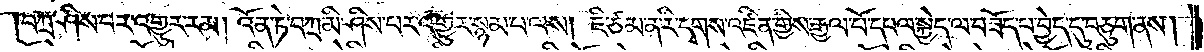།བཀྲ་ཤིས་པར་འགྱུར་རམ། འོན་ཏེ་བཀྲ་མི་ཤིས་པར་འགྱུར་སྙམ་པ་ལས། ཇི་ཙམ་ན་རི་དྭགས་འཛིན་གྱིས་རྒྱལ་པོ་དཔལ་སྐྱེད་ལ་བཟོད་པ་བྱེད་དུ་བཅུག་ནས།
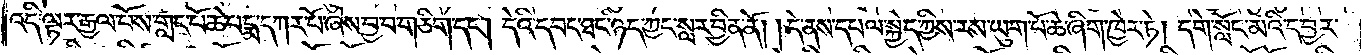འདི་ལྟར་རྒྱལ་པོས་གླང་པོ་ཆེ་པདྨ་དཀར་པོ་ཞེས་བྱ་བ་གཅིག་དང༌། དེའི་དབང་ཐང་ཉིད་ཀྱང་སླར་བྱིན་ནོ། །དེ་ནས་དཔལ་སྐྱེད་ཀྱིས་རས་ཡུག་པོ་ཆེ་ཞིག་ཁྱེར་ཏེ། དགེ་སློང་མའི་དབྱར་
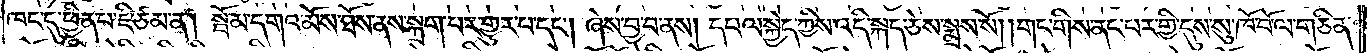ཁང་དུ་ཕྱིན་པ་ཇི་ཙམ་ན། སྦོམ་དགའ་མོས་ཐོས་ནས་སྐྲག་པར་གྱུར་པ་དང༌། ཞེས་བྱ་བ་ནས། དཔལ་སྐྱེད་ཀྱིས་འདི་སྐད་ཅེས་སྨྲས་སོ། །གང་གིས་ནང་པར་གྱི་དུས་སུ་ཁོ་བོ་ལ་གཅིན་
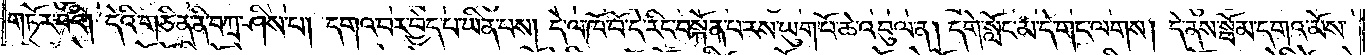གཏོར་བའི། དེའི་གཅིན་ནི་བཀྲ་ཤིས་པ། དགའ་བར་བྱེད་པ་ཡིན་པས། དེ་ལ་ཁོ་བོ་དེ་རིང་བསྐོན་པ་རས་ཡུག་པོ་ཆེ་འབུལ་ན། དགེ་སློང་མ་དེ་གང་ལགས། དེ་ནས་སྦོམ་དགའ་མོས་
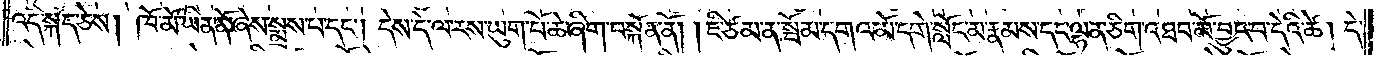འདི་སྐད་ཅེས། ཁོ་མོ་ཡིན་ནོ་ཞེས་སྨྲས་པ་དང༌། དེས་དེ་ལ་རས་ཡུག་པོ་ཆེ་ཞིག་བསྐོན་ནོ། །ཇི་ཙམ་ན་སྦོམ་དགའ་མོ་དགེ་སློང་མ་རྣམས་དང་ལྷན་ཅིག་འཐབ་མོ་བྱུང་བ་དེའི་ཚེ། དེ་
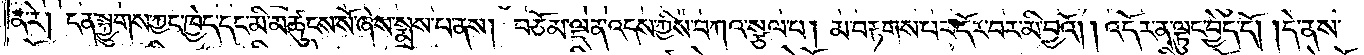ན་རེ། ངན་སྐྱུགས་ཀྱང་ཁྱེད་དང་མི་མཚུངས་སོ་ཞེས་སྨྲས་པ་ནས། བཅོམ་ལྡན་འདས་ཀྱིས་བཀའ་སྩལ་པ། མ་བརྟགས་པར་དོར་བར་མི་བྱའོ། །འདོར་ན་ལྟུང་བྱེད་དོ། །དེ་ནས་
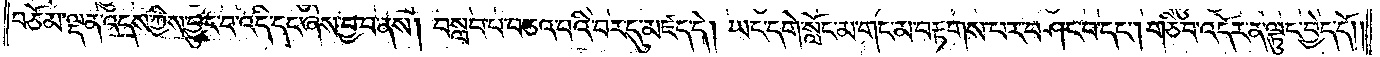བཅོམ་ལྡན་འདས་ཀྱིས་བྱུང་བ་འདི་དང་ཞེས་བྱ་བ་ནས། བསླབ་པ་བཅའ་བའི་བར་དུ་མཛད་དེ། ཡང་དགེ་སློང་མ་གང་མ་བརྟགས་པར་བཤང་བ་དང༌། གཅི་བ་འདོར་ན་ལྟུང་བྱེད་དོ༎
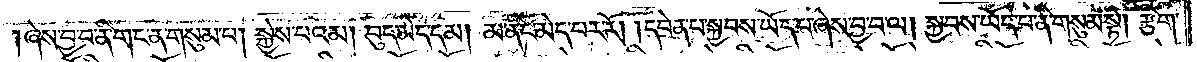།ཞེས་བྱ་བ་ནི་གང་ན་གསུམ་པ། སྐྱེས་པའམ། བུད་མེད་དམ། མ་ནིང་མེད་པར་རོ། །དབེན་པ་སྐྱབས་ཡོད་པ་ཞེས་བྱ་བ་ལ། སྐྱབས་ཡོད་པ་ནི་གསུམ་སྟེ། རྩིག་
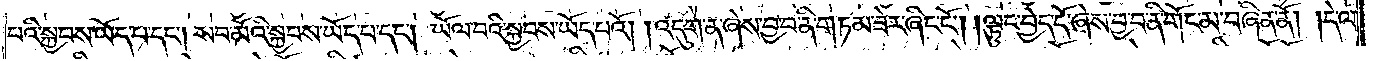པའི་སྐྱབས་ཡོད་པ་དང༌། སབ་མོའི་སྐྱབས་ཡོད་པ་དང༌། ཡོལ་བའི་སྐྱབས་ཡོད་པའོ། །འདུག་ན་ཞེས་བྱ་བ་ནི་གཏམ་ཟེར་ཞིང་ངོ༌། །ལྟུང་བྱེད་དོ་ཞེས་བྱ་བ་ནི་གོང་མ་བཞིན་ནོ། །དེ་ལ་
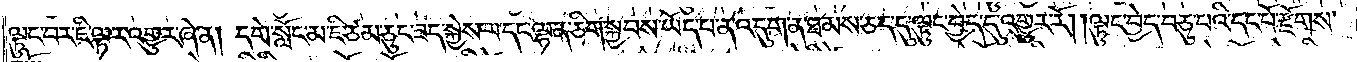ལྟུང་བར་ཇི་ལྟར་འགྱུར་ཞེ་ན། དགེ་སློང་མ་ཇི་ཙམ་ཅུང་ཟད་སྐྱེས་པ་དང་ལྷན་ཅིག་སྐྱབས་ཡོད་པ་ན་འདུག་ན་ཐམས་ཅད་དུ་ལྟུང་བྱེད་དུ་འགྱུར་རོ། །ལྟུང་བྱེད་བཅུ་བའི་དང་པོ་རྫོགས་
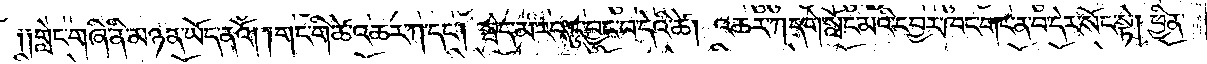༑༑གླེང་གཞི་ནི་མཉན་ཡོད་ནའོ། །གང་གི་ཚེ་འཆར་ཀ་དང༌། སྦེད་མ་རབ་ཏུ་བྱུང་བ་དེའི་ཚེ། འཆར་ཀ་དགེ་སློང་མའི་དབྱར་ཁང་གང་ན་བ་དེར་སོང་སྟེ། ཕྱིན་
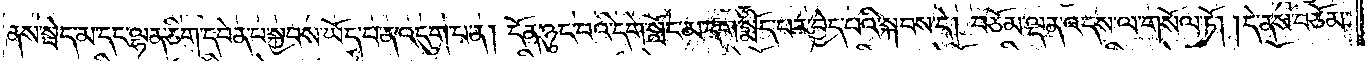ནས་སྦེད་མ་དང་ལྷན་ཅིག་དབེན་པ་སྐྱབས་ཡོད་པ་ན་འདུག་པ་ན། དོན་ཉུང་བའི་དགེ་སློང་མ་དག་སྨོད་པར་བྱེད་པའི་སྐབས་དེ། བཅོམ་ལྡན་འདས་ལ་གསོལ་ཏོ། །དེ་ནས་བཅོམ་
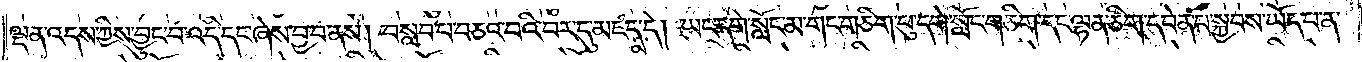ལྡན་འདས་ཀྱིས་བྱུང་བ་འདི་དང་ཞེས་བྱ་བ་ནས། བསླབ་པ་བཅའ་བའི་བར་དུ་མཛད་དེ། ཡང་དགེ་སློང་མ་གང་གཅིག་པུ་དགེ་སློང་གཅིག་དང་ལྷན་ཅིག་དབེན་པ་སྐྱབས་ཡོད་པ་ན་
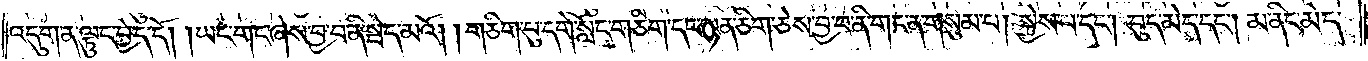འདུག་ན་ལྟུང་བྱེད་དོ། །ཡང་གང་ཞེས་བྱ་བ་ནི་སྦེད་མའོ། །གཅིག་པུ་དགེ་སློང་གཅིག་དང་ལྷན་ཅིག་ཅེས་བྱ་བ་ནི་གང་ན་གསུམ་པ། སྐྱེས་པ་དང༌། བུད་མེད་དང༌། མ་ནིང་མེད་
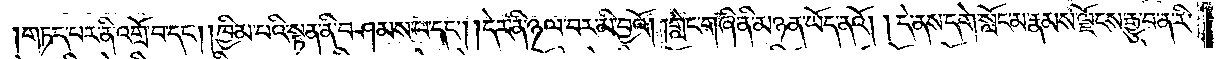།གཏད་པར་ནི་འགྲོ་བ་དང༌། །ཁྱིམ་པའི་སྟན་ནི་བཤམས་པ་དང༌། །དེར་ནི་ཉལ་བར་མི་བྱའོ། །གླེང་གཞི་ནི་མཉན་ཡོད་ནའོ། །དེ་ནས་དགེ་སློང་མ་རྣམས་ལྗོངས་རྒྱུ་བ་ན་རི་
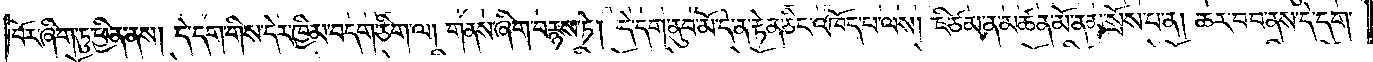བར་ཞིག་ཏུ་ཕྱིན་ནས། དེ་དག་གིས་དེར་ཁྱིམ་བདག་ཅིག་ལ། གནས་ཞིག་བརྙས་ཏེ། དེ་དག་ནུབ་མོ་དེ་ན་རྟེན་ཅིང་འཁོད་པ་ལས། ཇི་ཙམ་ན་མཚན་མོ་ནམ་སྲོས་པ་ན། ཆར་བབ་ནས་དེ་དག་
